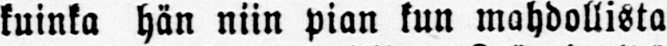kuinka hän niin pian kun mahdollista
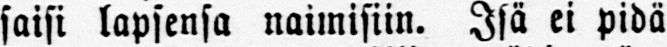saisi lapsensa naimisiin. Isä ei pidä
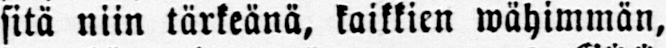sitä niin tärkeänä, kaikkien wähimmän,
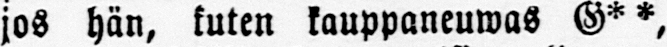jos hän, kuten kauppaneuwos G**,
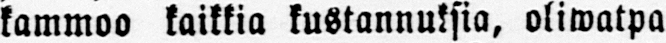kammoa kaikkia kustannuksia, oliwatpa
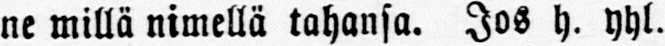ne millä nimellä tahansa. Jos h. yhl.
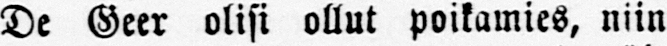De Geer olisi ollut poikamies, niin
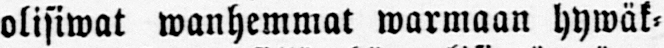olisiwat wanhemmat warmaan hywäk-
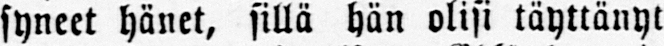syneet hänet, sillä hän olisi täyttänyt
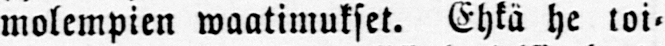molempien waatimukset. Ehkä he toi-
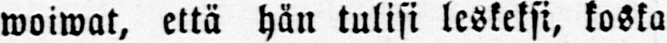woiwat, että hän tulisi leskeksi, koska
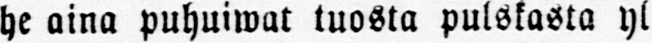he aina puhuiwat tuosta pulskasta yl-
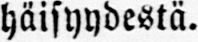häisyydestä.
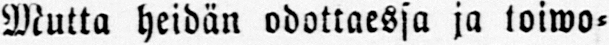Mutta heidän odottaessa ja toiwo-
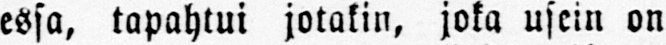essa, tapahtui jotakin, joka usein on
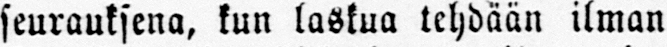seurauksena, kun laskua tehdään ilman
